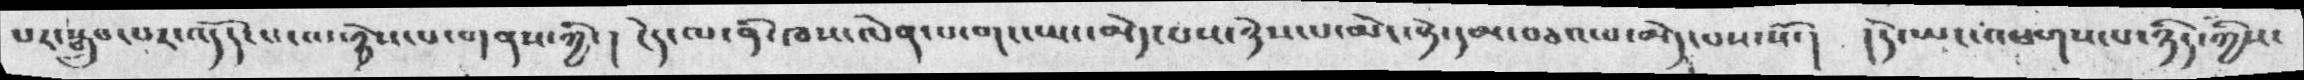པར་སྒྲུབ་པར་འདོད་པ་ལ་ཉེས་པ་གནས་ཀྱི་།  ངེད་ལ་ནི་ལཁས་ལེན་པ་གང་ཡང་མེད་པས་ཉེས་པ་མེད་སྟེ་དམ་བཅའ་བ་མེད་པས་སོ་། །དེ་ཡང་འཐགས་པ་ཉིད་ཀྱིས་
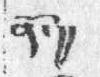ནོ་།།
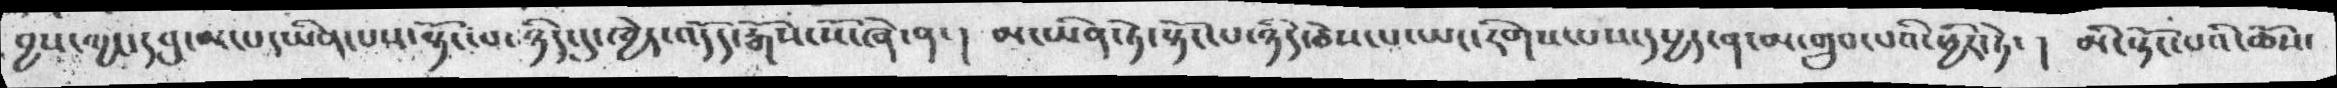བྱས་ཀྱང་དབུ་མ་པ་ཡིན་པས་སྟོང་པ་ཉིད་དུ་ཁྱེད་འདོད་རྒོས་སོ་ཞེ་ན་། མ་ཡིན་ཏེ་སྟོང་པ་ཉིད་ཅེས་པ་ཡང་རིགས་པས་དཔྱད་ན་མ་གྲུབ་པའི་ཕྱིར་ཏེ་། མི་སྟོང་པའི་ཆོས་
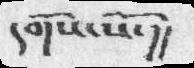དགོས་སོ་།།
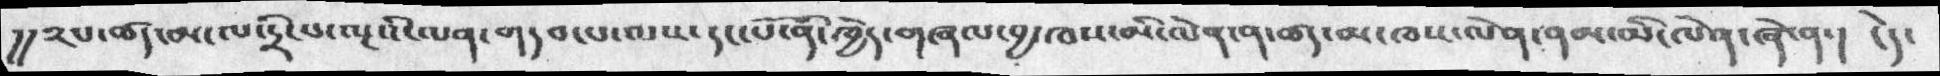།།༢པ་ཚད་མ་ལ་དྲི་པ་ལྔའི་ལན་གདབ་པ་ལས་དང་པོ་ནི་ཁྱེད་གཞལ་བྱ་ཁས་མི་ལེན་ན་ཚད་མ་ཁས་ལེན་ནམ་མི་ལེན་ཞེ་་ན་། ངེད་
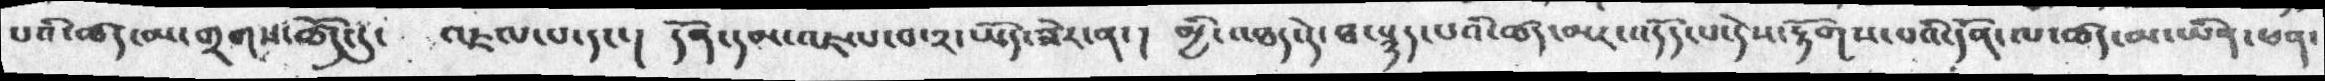པའི་ཚད་མ་གྲགས་ཚོད་དུ་  འཇལ་པ་དང་།  དོན་དམ་འཇལ་བ་༢་ཡོད་ཟེར་ན་།  མྱི་འཐད་དེ་ཐ་སྙད་པའི་ཚད་མར་འདོད་པ་དེས་རྟོགས་པའི་དོན་ལ་ཚད་མ་ཡིན་ཕན་
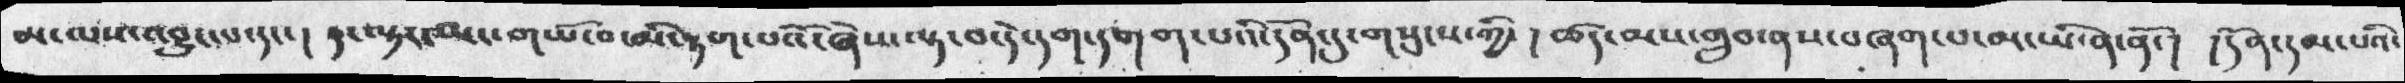མ་ལས་འབྱུང་པ་དང་།  ད་ལྟར་མང་གཡོ་བ་མི་རྟག་པའོ་ཞེས་ལྟ་བ་དེ་དག་དགག་པའི་དོན་དུ་གསུངས་ཀྱི་ ། ཚད་མས་གྲུབ་ནས་བཞག་པ་མ་ཡིན་ནོ་།  །དོན་དམ་པའི་
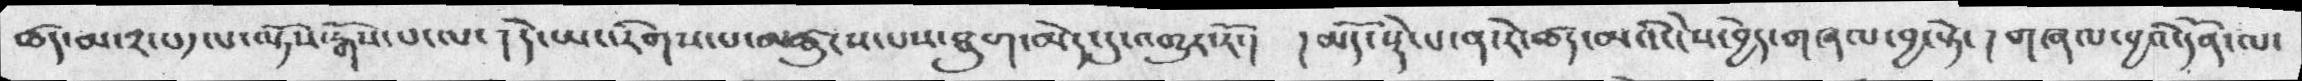ཚད་མ་༢་བདལ་ལྟོས་རྒོས་པ་ལ་ ། དེ་ཡང་རིགས་པ་མཚུངས་པས་ཐུག་མེད་དུ་འགྱུར་རོ་།  ། མདོ་སྡེ་པ་ན་རེ་ཚད་མའི་ངེས་བྱེད་གཞལ་བྱ་སྟེ་།  གཞལ་བྱའི་དོན་ལ་
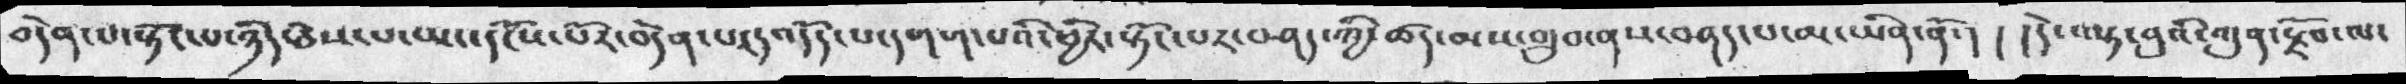བདེན་པ་སྟོང་པ་ཉིད་ཅེས་པ་ཡང་དངོས་པོར་བདེན་་པར།འདོད་པ་དགག་པའི་ཕྱིར་སྟོང་པར་བཤད་ཀྱི་ཚད་མས་གྲུབ་ནས་བཤད་པ་མ་ཡིན་ནོ་། ། །དེ་ལྟ་བུའི་ཀུན་རྗོབ་ལ་
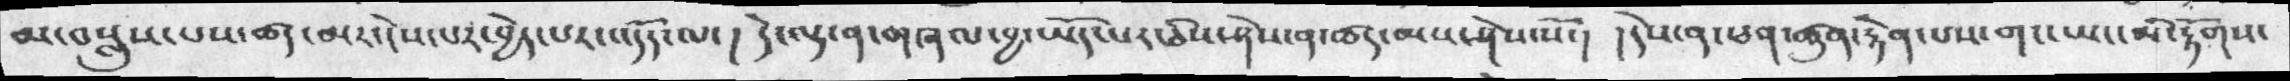མ་བསླུས་པས་ཚད་མར་ངེས་པར་བྱེད་པར་འདོད་ལ་། དེ་ལྟ་ན་གཞལ་བྱ་ཡོད་པར་ཅེས་ཤེས་ན་ཚད་མས་ཤེས་སོ་།  །དེས་ན་ཕན་ཚུན་རྟེན་པས་གང་ཡང་མི་རྟོགས་
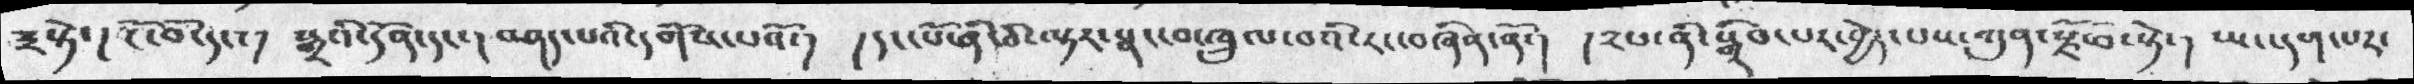༣སྟེ་། ངོ་བོ་དང་། སྒྲའི་དོན་དང་། བཤད་པའི་དགོས་པའོ་། །དང་པོ་ནི་ཅི་ལྟར་སྣང་བ་ཁྲུལ་བའི་རང་བཞིན་ནོ་། །༢པ་ནི་སྒྲིབ་པར་བྱེད་པས་ཀུན་རྫོབ་སྟེ་། ཡང་དག་པར་
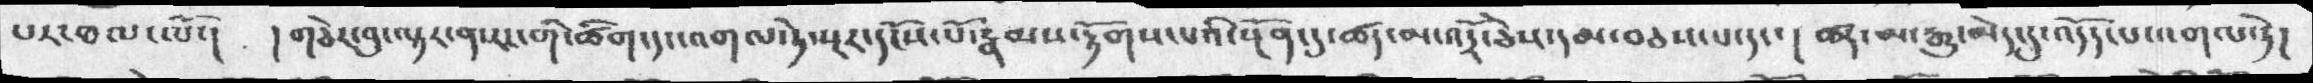པར་ཐལ་ལོ་། །གཅེར་བུ་ལྟར་ན་རང་གི་ཚིག་དང་འགལ་ཏེ་སྔར་དངོས་པོ་རྣམས་རྟོགས་པའི་སྔོན་དུ་ཚད་མ་འདྲོ་ཅེས་དམ་བཅས་པ་དང་། ཚད་མ་རྒྱུ་མེད་དུ་འདོད་པ་འགལ་ཏེ།
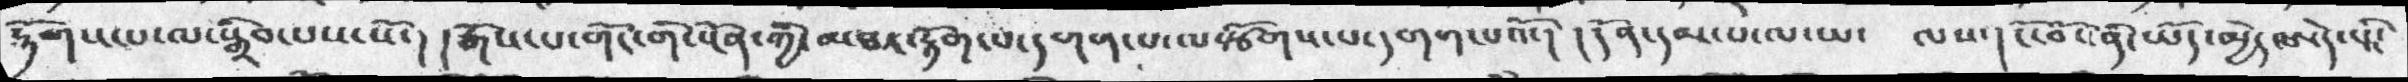རྟོགས་པ་ལ་སྒྲིབ་པས་སོ་།  །རྒོས་པ་གོང་གི་སྔོན་གྱི་མཐར་རྟོག་པ་དགག་པ་ལསྩོགས་པ་དགག་པའོ་།  །དོན་དམ་པ་ལ་ཡ་  ལས་།  ངོ་བོ་ནི་ཡོད་མྱེད་ཨེད་པའི་
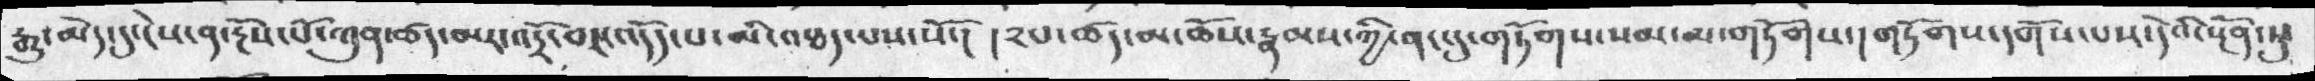རྒྱུ་མེད་དུ་ངེས་ན་རྔོས་པོ་ཀུན་ཚད་མར་འདྲོ་བར་འདོད་པ་མི་འཐད་པས་སོ་། །༢པ་ཚད་མ་ཆོས་རྣམས་ཀྱི་ནང་དུ་གཏོགས་སམ་མ་གཏོགས་། གཏོགས་དགོས་པས་དེའི་སྔོན་དུ་
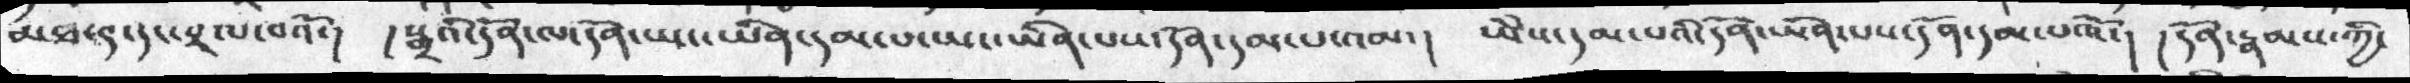མཐར་དང་བྲལ་བའོ་།  །སྒྲའི་དོན་ལ་དོན་ཡང་ཡིན་དམ་པ་ཡང་ཡིན་པས་དོན་དམ་པ་འམ་།  ཡཻས་དམ་པའི་དོན་ཡིན་པས་དོན་དམ་པའོ་། །དོན་རྣམས་ཀྱི་
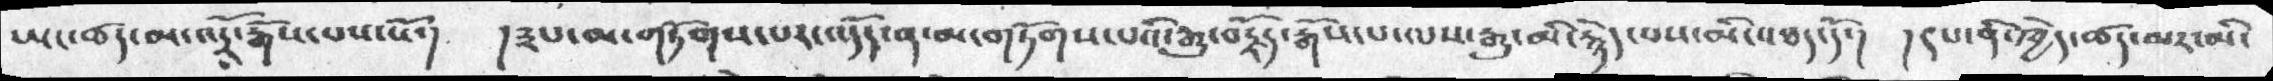ཡང་ཚད་མ་འདྲོ་རྒོས་པས་སོ་།  །༣པ་མ་གཏོགས་པར་འདོད་ན་མ་གཏོགས་པའི་རྒྱུ་བརྗོད་རྒོས་པ་ལས་རྒྱུ་མི་རྙེད་པས་མི་འཐད་དོ་།  ། །པ་ནི་ཁྱེད་ཚད་མར་མི་
